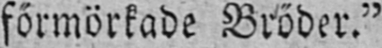förmörkade Bröder."
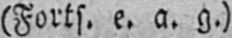(Forts. e. a. g.)
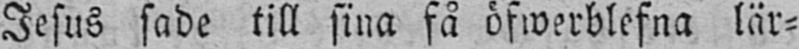Jesus sade till sina få öfwerblefna lär-
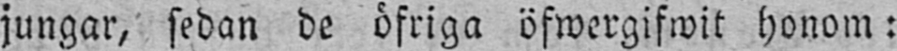jungar, sedan de öfriga öfwergifwit honom:
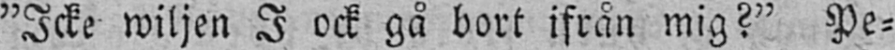"Icke wiljen I ock gå bort ifrån mig?" Pe-
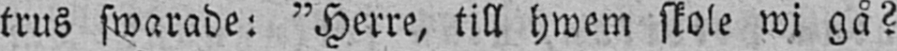trus swarade: "Herre, till hwem skole wi gå?
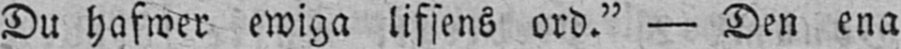Du hafwer ewiga lifsens ord." — Den ena
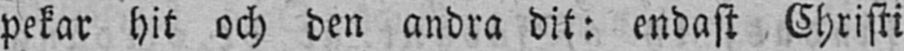pekar hit och den andra dit: endast Christi
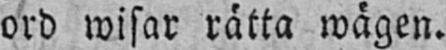ord wisar rätta wägen.
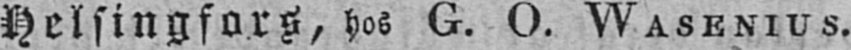Helsingfors, hos G. O. WASENIUS.
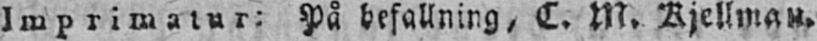Imprimatur: På befallning, C. M. Kjellman.
